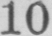10
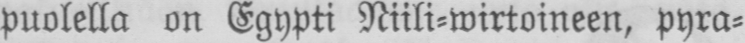puolella on Egypti Niili-wirtoineen, pyra-
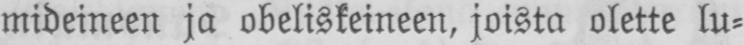mideineen ja obeliskeineen, joista olette lu-
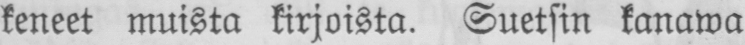keneet muista kirjoista. Suetsin kanawa
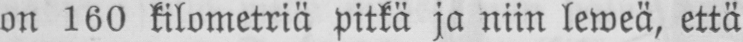on 160 kilometriä pitkä ja niin leweä, että
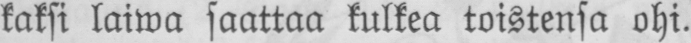kaksi laiwa saattaa kulkea toistensa ohi.
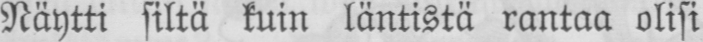Näytti siltä kuin läntistä rantaa olisi
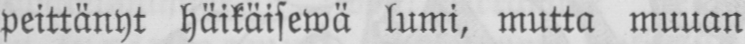peittänyt häikäisewä lumi, mutta muuan
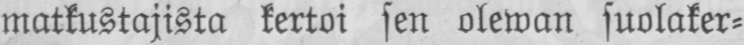matkustajista kertoi sen olewan suolaker-
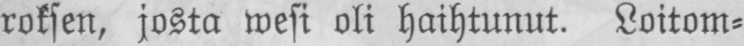roksen, josta wesi oli haihtunut. Loitom-
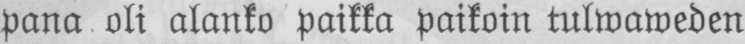pana oli alanko paikka paikoin tulwaweden
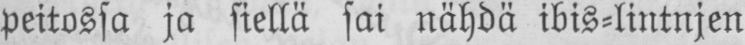peitossa ja siellä sai nähdä ibis-lintnjen
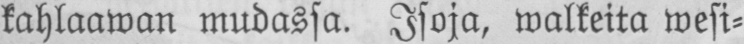kahlaawan mudassa. Isoja, walkeita wesi-
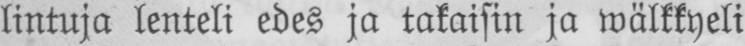lintuja lenteli edes ja takaisin ja wälkkyeli
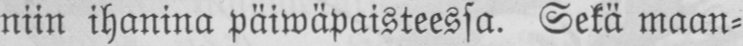niin ihanina päiwäpaisteessa. Sekä maan-
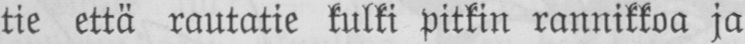tie että rautatie kulki pitkin rannikkoa ja
